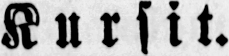Kursit.
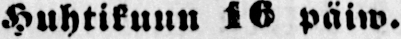Huhtikuun 16 päiw.
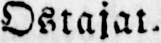Ostajat.
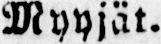Myyjät.
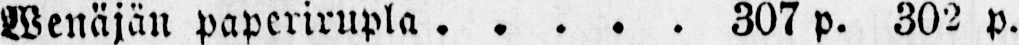Venäjän paperirupla 307 p. 302 p.
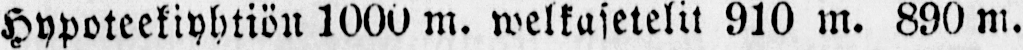Hypoteekiyhtiön 1000 m. welkasetelit 910 m. 890 m.
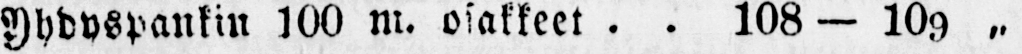Yhdyspankin 100 m. osakkeet 108— 109 „
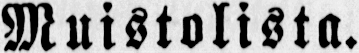Muistolista.
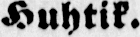Huhtik.
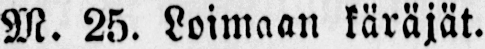M. 25. Loimaan käräjät.
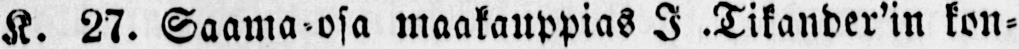K. 27. Saama-osa maakauppias I .Tikander'in kon-
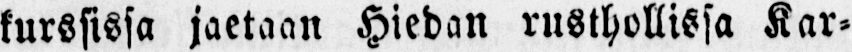kurssissa jaetaan Hiedan rusthollissa Kar-
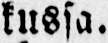kussa.
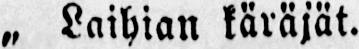„ „ Laihian käräjät.
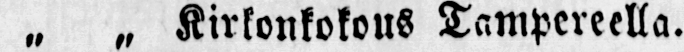„ „ Kirkonkokous Tampereella.
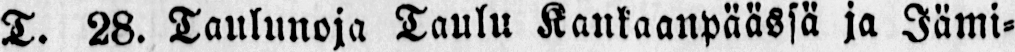T. 28. Taulunoja Taulu Kankaanpäässä ja Jämi-
